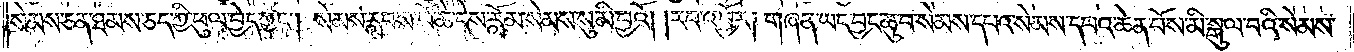སེམས་ཅན་ཐམས་ཅད་ཀྱི་ཕུལ་བྱེད་ཀྱང༌། སེམས་རླབས་པོ་ཆེ་དེས་རློམ་སེམས་སུ་མི་བྱའོ། །རབ་འབྱོར། གཞན་ཡང་བྱང་ཆུབ་སེམས་དཔའ་སེམས་དཔའ་ཆེན་པོས་མི་སྒུལ་བའི་སེམས་
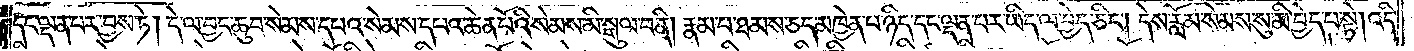དང་ལྡན་པར་བྱས་ཏེ། དེ་ལ་བྱང་ཆུབ་སེམས་དཔའ་སེམས་དཔའ་ཆེན་པོའི་སེམས་མི་སྒུལ་བ་ནི། རྣམ་པ་ཐམས་ཅད་མཁྱེན་པ་ཉིད་དང་ལྡན་པར་ཡིད་ལ་བྱེད་ཅིང༌། དེས་རློམ་སེམས་སུ་མི་བྱེད་པ་སྟེ། འདི་
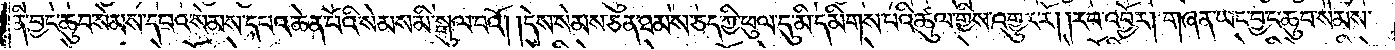ནི་བྱང་ཆུབ་སེམས་དཔའ་སེམས་དཔའ་ཆེན་པོའི་སེམས་མི་སྒུལ་བའོ། །དེས་སེམས་ཅན་ཐམས་ཅད་ཀྱི་ཕུལ་དུ་མི་དམིགས་པའི་ཚུལ་གྱིས་འགྱུར་རོ། །རབ་འབྱོར། གཞན་ཡང་བྱང་ཆུབ་སེམས་
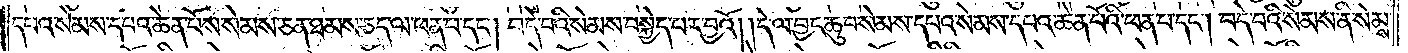དཔའ་སེམས་དཔའ་ཆེན་པོས་སེམས་ཅན་ཐམས་ཅད་ལ་ཕན་པ་དང༌། བདེ་བའི་སེམས་བསྐྱེད་པར་བྱའོ། །དེ་ལ་བྱང་ཆུབ་སེམས་དཔའ་སེམས་དཔའ་ཆེན་པོའི་ཕན་པ་དང༌། བདེ་བའི་སེམས་ནི་སེམས་
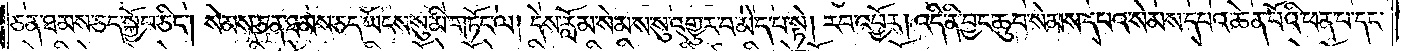ཅན་ཐམས་ཅད་སྐྱོབ་ཅིང༌། སེམས་ཅན་ཐམས་ཅད་ཡོངས་སུ་མི་གཏོང་ལ། དེས་རློམ་སེམས་སུ་འགྱུར་བ་མེད་པ་སྟེ། རབ་འབྱོར། འདི་ནི་བྱང་ཆུབ་སེམས་དཔའ་སེམས་དཔའ་ཆེན་པོའི་ཕན་པ་དང་
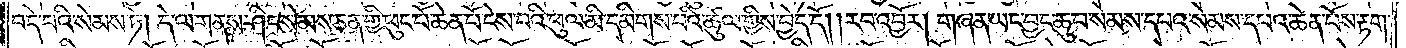བདེ་བའི་སེམས་ཏེ། དེ་ལ་གནས་ཤིང་སེམས་ཅན་གྱི་ཕུང་པོ་ཆེན་པོ་ངེས་པའི་ཕུལ་མི་དམིགས་པའི་ཚུལ་གྱིས་བྱེད་དོ། །རབ་འབྱོར། གཞན་ཡང་བྱང་ཆུབ་སེམས་དཔའ་སེམས་དཔའ་ཆེན་པོས་རྟག་
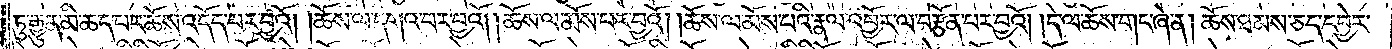ཏུ་རྒྱུན་མི་ཆད་པར་ཆོས་འདོད་པར་བྱའོ། །ཆོས་ལ་དགའ་བར་བྱའོ། །ཆོས་ལ་མོས་པར་བྱའོ། །ཆོས་ལ་མོས་པའི་རྣལ་འབྱོར་ལ་བརྩོན་པར་བྱའོ། །དེ་ལ་ཆོས་གང་ཞེ་ན། ཆོས་ཐམས་ཅད་དབྱེར་
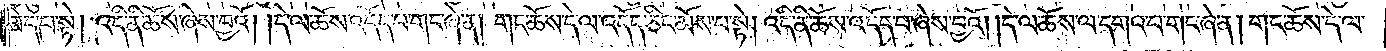མེད་པ་སྟེ། འདི་ནི་ཆོས་ཞེས་བྱའོ། །དེ་ལ་ཆོས་འདོད་པ་གང་ཞེ་ན། གང་ཆོས་དེ་ལ་འདོད་ཅིང་མོས་པ་སྟེ། འདི་ནི་ཆོས་འདོད་པ་ཞེས་བྱའོ། །དེ་ལ་ཆོས་ལ་དགའ་བ་གང་ཞེ་ན། གང་ཆོས་དེ་ལ་
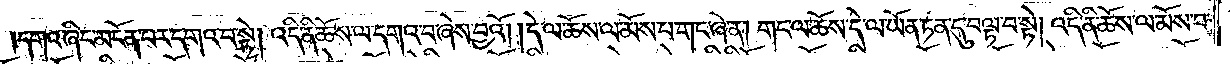དགའ་ཞིང་མངོན་པར་དགའ་བ་སྟ། འདི་ནི་ཆོས་ལ་དགའ་བ་ཞེས་བྱའོ། །དེ་ལ་ཆོས་ལ་མོས་པ་གང་ཞེ་ན། གང་ཆོས་དེ་ལ་ཡོན་ཏན་དུ་བལྟ་བ་སྟེ། འདི་ནི་ཆོས་ལ་མོས་པ་
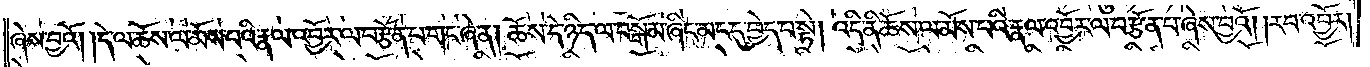ཞེས་བྱའོ། །དེ་ལ་ཆོས་ལ་མོས་པའི་རྣལ་འབྱོར་ལ་བརྩོན་པ་གང་ཞེ་ན། ཆོས་དེ་ཉིད་ལ་བསྒོམ་ཞིང་མང་དུ་བྱེད་པ་སྟེ། འདི་ནི་ཆོས་ལ་མོས་པའི་རྣལ་འབྱོར་ལ་བརྩོན་པ་ཞེས་བྱའོ། །རབ་འབྱོར།
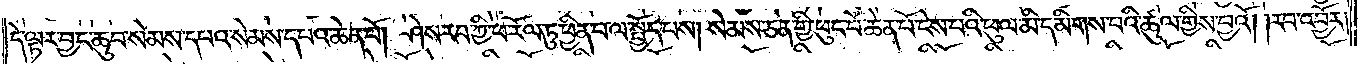དེ་ལྟར་བྱང་ཆུབ་སེམས་དཔའ་སེམས་དཔའ་ཆེན་པོ། ཤེས་རབ་ཀྱི་ཕ་རོལ་ཏུ་ཕྱིན་པ་ལ་སྤྱོད་པས། སེམས་ཅན་གྱི་ཕུང་པོ་ཆེན་པོ་ངེས་པའི་ཕུལ་མི་དམིགས་པའི་ཚུལ་གྱིས་བྱའོ། །རབ་འབྱོར།
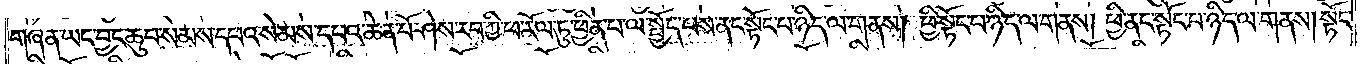གཞན་ཡང་བྱང་ཆུབ་སེམས་དཔའ་སེམས་དཔའ་ཆེན་པོ་ཤེས་རབ་ཀྱི་ཕ་རོལ་ཏུ་ཕྱིན་པ་ལ་སྤྱོད་པས་ནང་སྟོང་པ་ཉིད་ལ་གནས། ཕྱི་སྟོང་པ་ཉིད་ལ་གནས། ཕྱི་ནང་སྟོང་པ་ཉིད་ལ་གནས། སྟོང་
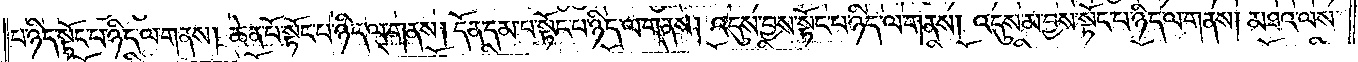པ་ཉིད་སྟོང་པ་ཉིད་ལ་གནས། ཆེན་པོ་སྟོང་པ་ཉིད་ལ་གནས། དོན་དམ་པ་སྟོང་པ་ཉིད་ལ་གནས། འདུས་བྱས་སྟོང་པ་ཉིད་ལ་གནས། འདུས་མ་བྱས་སྟོང་པ་ཉིད་ལ་གནས། མཐའ་ལས་
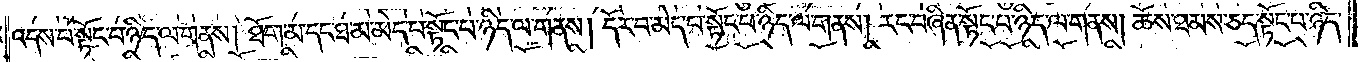འདས་པ་སྟོང་པ་ཉིད་ལ་གནས། ཐོག་མ་དང་ཐ་མ་མེད་པ་སྟོང་པ་ཉིད་ལ་གནས། དོར་བ་མེད་པ་སྟོང་པ་ཉིད་ལ་གནས། རང་བཞིན་སྟོང་པ་ཉིད་ལ་གནས། ཆོས་ཐམས་ཅད་སྟོང་པ་ཉིད་
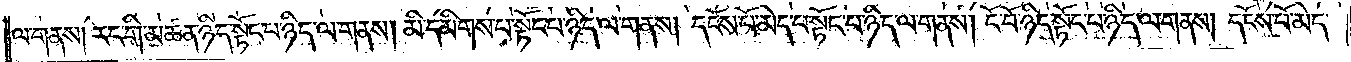ལ་གནས། རང་གི་མཚན་ཉིད་སྟོང་པ་གཉིད་ལ་གནས། མི་དམིགས་པ་སྟོང་པ་ཉིད་ལ་གནས། དངོས་པོ་མེད་པ་སྟོང་པ་ཉིད་ལ་གནས། ངོ་བོ་ཉིད་སྟོང་པ་ཉིད་ལ་གནས། དངོས་པོ་མེད་
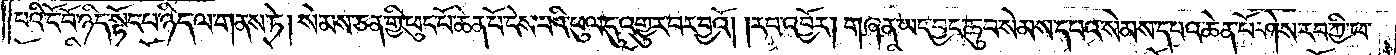པའི་ངོ་བོ་ཉིད་སྟོང་པ་ཉིད་ལ་གནས་ཏེ། སེམས་ཅན་གྱི་ཕུང་པོ་ཆེན་པོ་ངེས་པའི་ཕུལ་དུ་འགྱུར་བར་བྱའོ། །རབ་འབྱོར། གཞན་ཡང་བྱང་ཆུབ་སེམས་དཔའ་སེམས་དཔའ་ཆེན་པོ་ཤེས་རབ་ཀྱི་ཕ་
